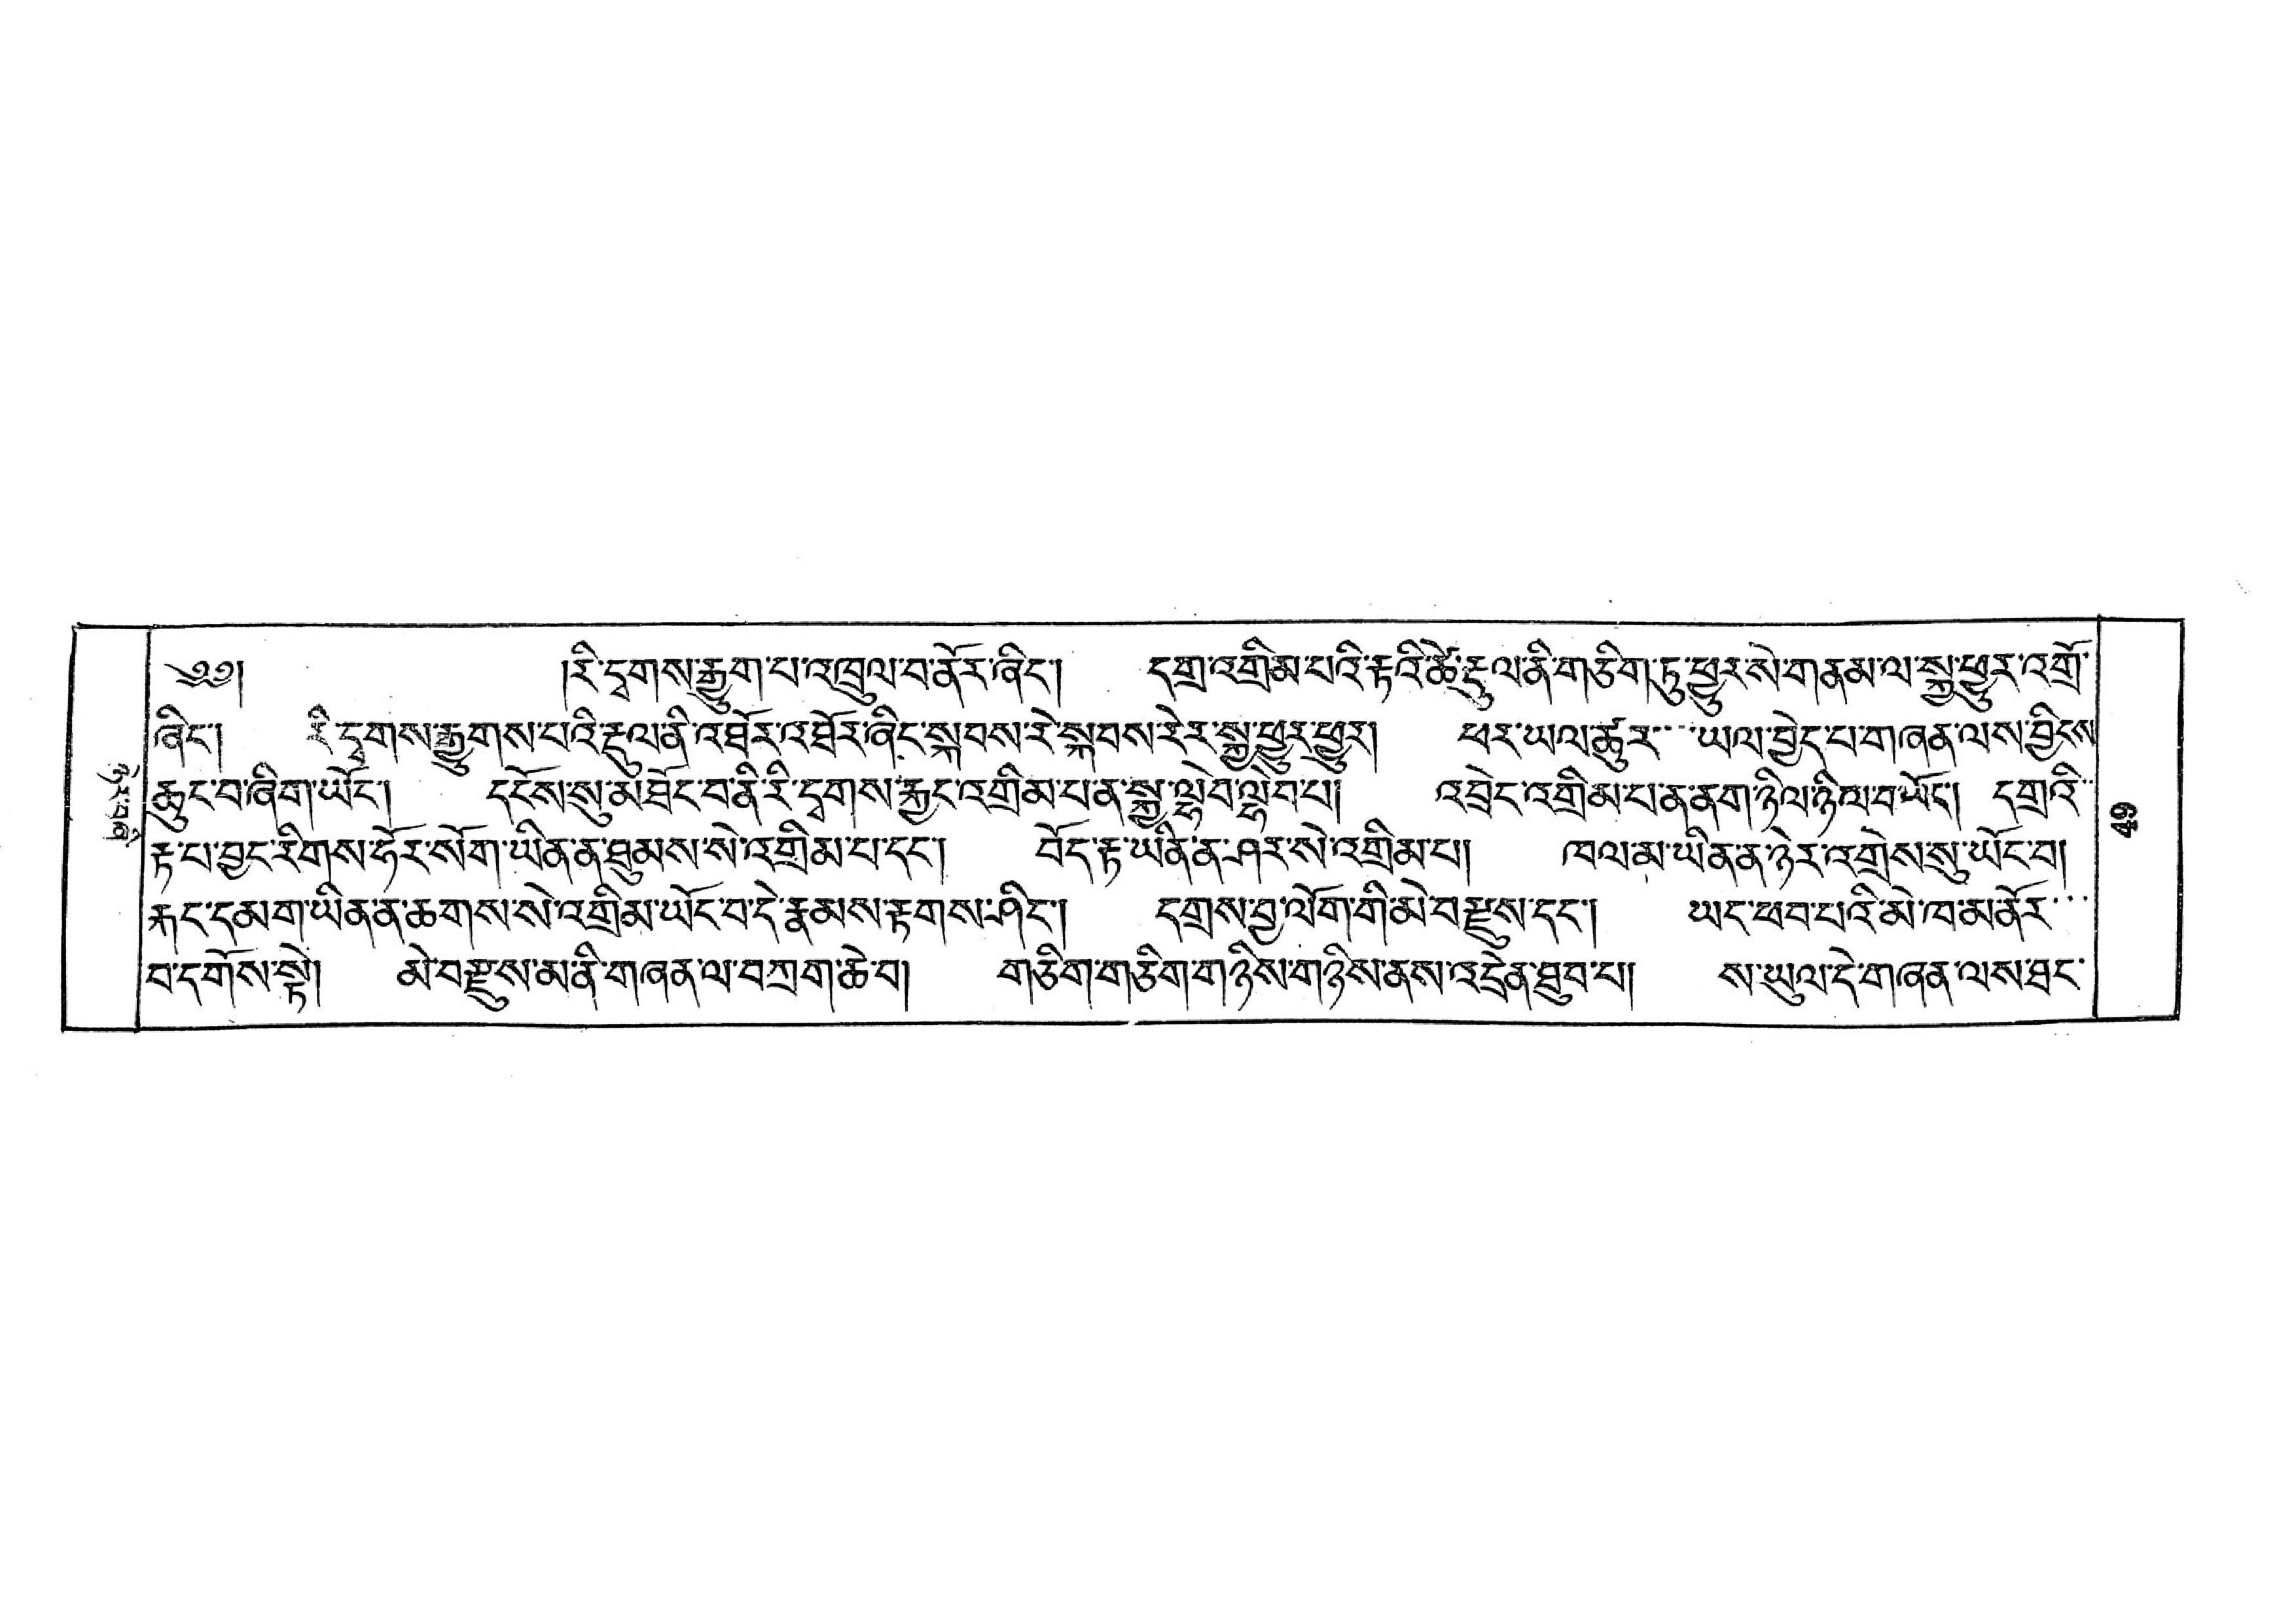ཉེར་བཞི་
༄༅། །རི་དྭགས་རྒྱུག་པ་འཁྲུལ་བ་ནོར་ཞིང་། དགྲ་འགྲིམ་པའི་རྟའི་ཚེ་རྡུལ་ནི་གཅིག་ཏུ་ཕྱུར་སེ་གནམ་ལ་སྐྱ་ཕྱུར་འགྲོ་
ཞིང་། རི་དྭགས་རྒྱུགས་པའི་རྡུལ་ནི་འཐོར་འཐོར་ཞིང་སྐབས་རེ་སྐབས་རེར་སྐྱ་ཕྱུར་ཕྱུར། ཕར་ཡལ་ཚུར་་་ཡལ་བྱེད་པ་གཞན་ལས་བྱིངས་
ཆུང་བ་ཞིག་ཡོང་། དངོས་སུ་མཐོང་བ་ནི་རི་དྭགས་རྐྱང་འགྲིམ་པ་ན་སྐྱ་ལྷེབ་ལྷེབ་པ། འབྲེང་འགྲིམ་པ་ན་ནག་ཉིལ་ཉིལ་བ་ཡོང་། དགྲའི་
རྟ་པ་བྱང་རིགས་ཧོར་སོག་ཡིན་ན་ཐུམས་སེ་འགྲིམ་པ་དང་། བོད་རྟ་ཡིན་ན་ཤར་སེ་འགྲིམ་པ། ཁལ་མི་ཡིན་ན་ཉེར་འགྲེས་སུ་ཡོང་བ།
རྐང་དམག་ཡིན་ན་ཆགས་སེ་འགྲིམ་ཡོང་བ་དེ་རྣམས་རྟགས་ཤིང་། དགྲས་བྱ་ལོག་གི་མེ་བརྫུས་དང་། ཡོད་ཕབ་པའི་མེ་ཁ་མནོར་་་
བ་དགོས་སྟེ། མེ་བརྫུས་མ་ནི་གཞན་ལ་བཀྲག་ཆེ་བ། གཅིག་གཅིག་གཉིས་གཉིས་ནས་འདྲེན་ཐུབ་པ། ས་ཡུལ་དེ་གཞན་ལས་ཐང་
